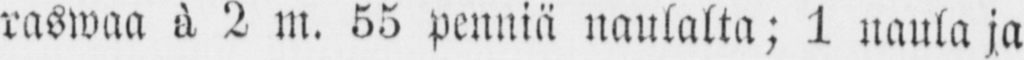raswaa ä 2 m. 55 penniä naulalta; 1 naula ja
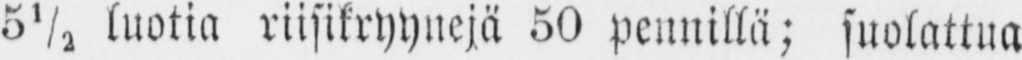5½ luotia riisikryynejä 50 pennillä; suolattua
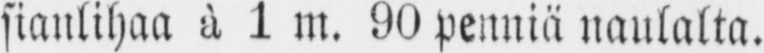sianlihaa à 1 m. 90 penniä naulalta.
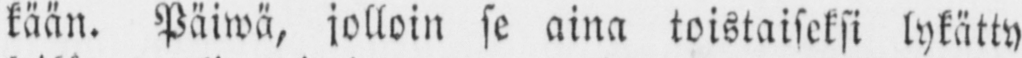kään. Päiwä, jolloin se aina toistaiseksi lykätty
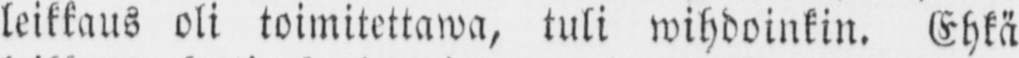leikkaus oli toimitettawa, tuli wihdoinkin. Ehkä
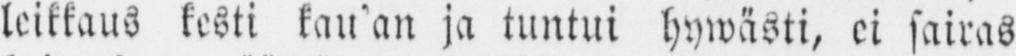leikkaus kesti kau’an ja tuntui hywästi, ei sairas
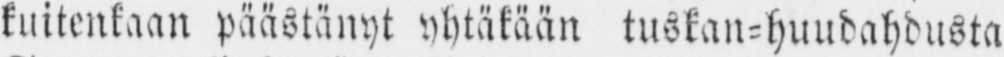kuitenkaan päästänyt yhtäkään tuskan-huudahdusta
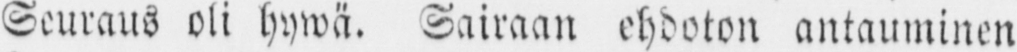Seuraus oli hywä. Sairaan ehdoton antauminen
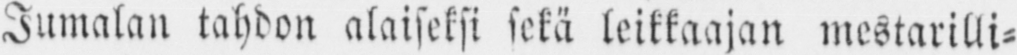Jumalan tahdon alaiseksi sekä leikkaajan mestarilli-
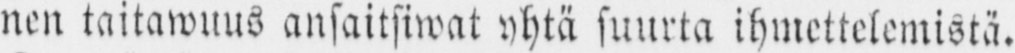nen taitawuus ansaitsiwat yhtä suurta ihmettelemistä.
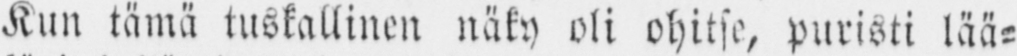Kun tämä tuskallinen näky oli ohitse, puristi lää-
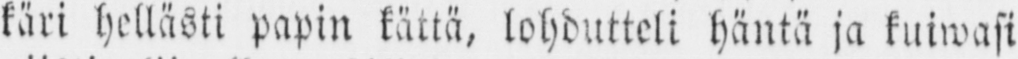käri hellästi papin kättä, lohdutteli häntä ja kuiwasi
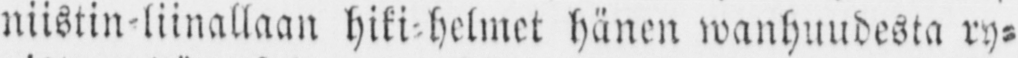niistin-liinallaan hiki helmet hänen wanhuudesta ry-
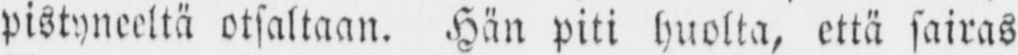pistyneeltä otsaltaan. Hän piti huolta, että sairas
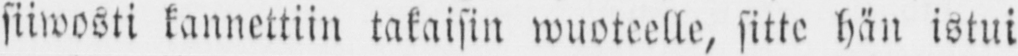siiwosti kannettiin takaisin wuoteelle, sitte hän istui
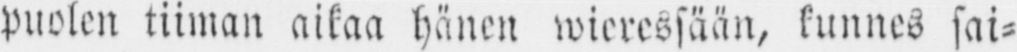puolen tiiman aikaa hänen wieressään, kunnes sai-
